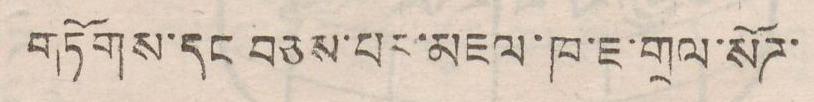གཏོགས་དང་བཅས་པར་མཇལ་ཁ་ཇ་གྲལ་སོཌ་
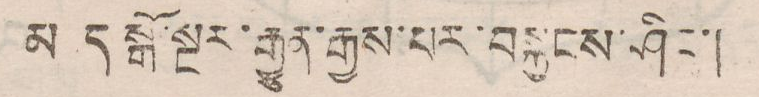མ ད སྒོ་སྔར་རྒྱུན་རྒྱས་པར་བསྐྱངས་ཤིང་།
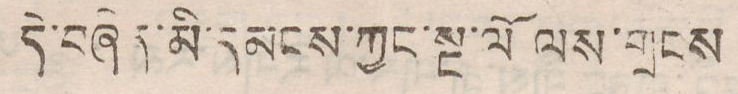དེ་བཞིན་མི་དམངས་ཀྱང་སྔ་ལོ ལས་གྲངས
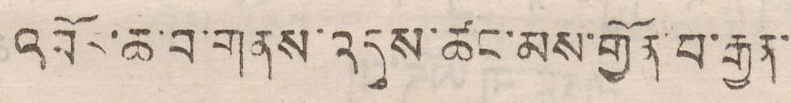འབོར་ཆ་བ་གནས་འདུས་ཚང་མས་གྱོན་པ་རྒྱན་
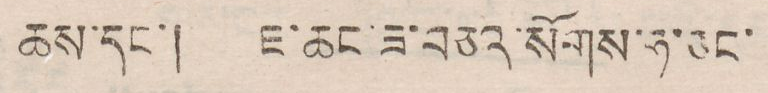ཆས་དང་། ཇ་ཆང་ཟ་བཅའ་སོགས་ཧ་ཅང་
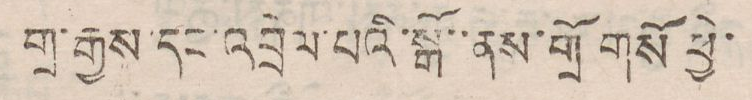གྲ་རྒྱས་དང་འབྲེལ་པའི་སྒོ་་ནས་གྲོ གསོ ཕྱེ་
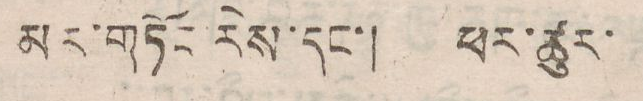མར་གཏོར་རེས་དང་། ཕར་ཚུར་
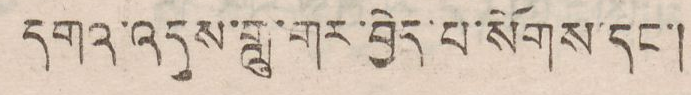དགའ་འདུས་གླུ་གར་བྱེད་པ་སོགས་དང་།
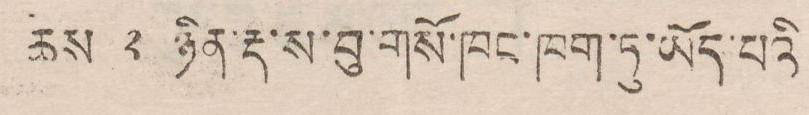ཚེས ༢ ཉིན་རྡ་ས་བུ་གསོ་ཁང་ཁག་ཏུ་ཡོད་པའི
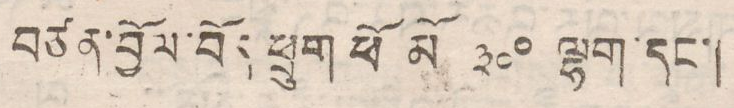བཙན་བྱོལ་བོད ཕྲུག་ཕོ མོ ༣༠༠ ལྷག་དང་།
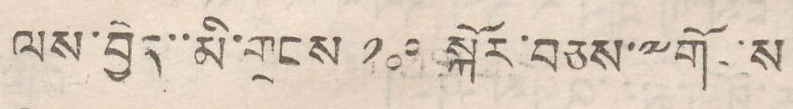ལས་བྱེད་་མི་གྲངས་ ༡༠༠ སྐོར་བཅས་༸གོངས
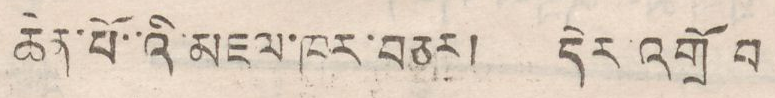ཆེན་པོ་་འི་མཇལ་ཁར་བཅར། དེར་འགྲོ བ
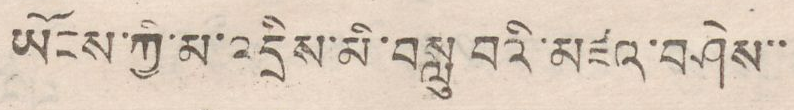ཡོངས་ཀྱི་མ་འདྲེས་མི་བསླུ་བའི་མཛད་བཤེས་་
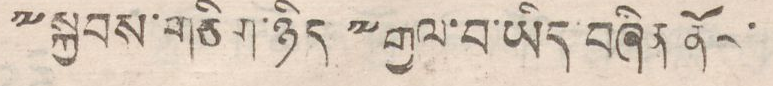༸སྐྱབས་གཅིག་ཉིད༸རྒྱལ་བ་ཡིད་བཞིན་ནོར་
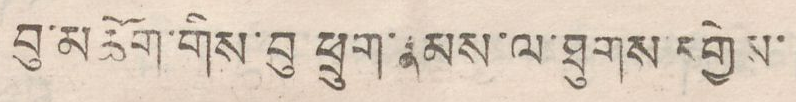བུ་མཆོག་གིས་བུ ཕྲུག་རྣམས་པ་ཐུགས དགྱེས་
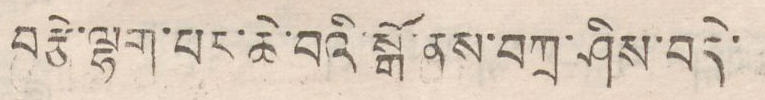བརྩེ་ལྷག་པར་ཆེ་བའི་སྒོ་ནས་བཀྲ་ཤིས་བདེ་
